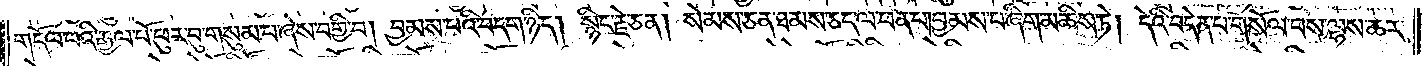གདོལ་པའི་རྒྱལ་པོ་ཕུར་བུ་གསུམ་པ་ཞེས་བགྱི་བ། བྱམས་པའི་བདག་ཉིད། སྙིང་རྗེ་ཅན། སེམས་ཅན་ཐམས་ཅད་ལ་ཕན་པ། བྱམས་པ་ཞིག་མཆིས་ཏེ། དེའི་བདེན་པ་གསོལ་བས་ལྷས་ཆར་
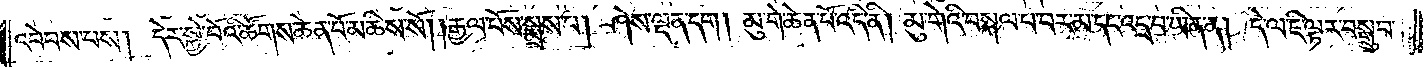འབེབས་པས། དེར་སྐྱེ་བོའི་ཚོགས་ཆེན་པོ་མཆིས་སོ། །རྒྱལ་པོས་སྨྲས་པ། ཤེས་ལྡན་དག །མུ་གེ་ཆེན་པོ་འདི་ནི། མུ་གེའི་བསྐལ་པ་བར་མ་དང་འདྲ་བ་ཡིན་ན། དེ་ལ་ཇི་ལྟར་བསྒྲུབ་
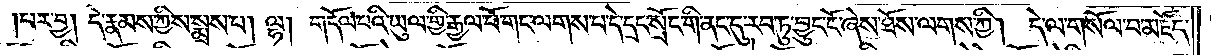པར་བྱ། དེ་རྣམས་ཀྱིས་སྨྲས་པ། ལྷ། གདོལ་པའི་ཡུལ་གྱི་རྒྱལ་པོ་གང་ལགས་པ་དེ་དྲང་སྲོང་གི་ནང་དུ་རབ་ཏུ་བྱུང་ངོ་ཞེས་ཐོས་ལགས་ཀྱི། དེ་ལ་གསོལ་པ་མཛོད་
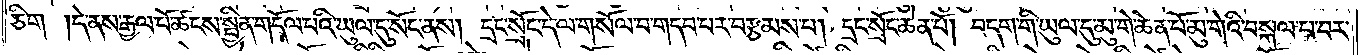ཅིག །དེ་ནས་རྒྱལ་པོ་ཚངས་སྦྱིན་གདོལ་བའི་ཡུལ་དུ་སོང་ནས། དྲང་སྲོང་དེ་ལ་གསོལ་བ་གདབ་པར་བརྩམས་པ། དྲང་སྲོང་ཆེན་པོ། བདག་གི་ཡུལ་དུ་མུ་གེ་ཆེན་པོ་མུ་གེའི་བསྐལ་པ་བར་
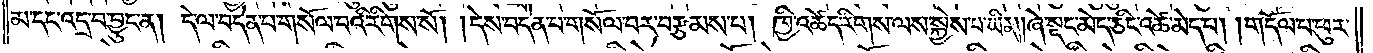མ་དང་འདྲ་བ་བྱུང་ན། དེ་ལ་བདེན་པ་གསོལ་བའི་རིགས་སོ། །དེས་བདེན་པ་གསོལ་བར་བརྩམས་པ། ཁྱི་འཚེད་རིགས་ལས་སྐྱེས་པ་ཡིན། །ཞེ་སྡང་མེད་ཅིང་འཚེ་མེད་པ། །གདོལ་པ་ཕུར་
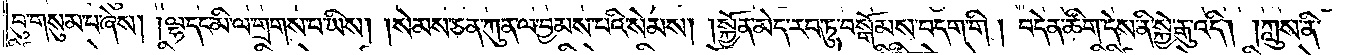བུ་གསུམ་པ་ཞེས། །ལྷ་དང་མི་ལ་གྲགས་པ་ཡིས། །སེམས་ཅན་ཀུན་ལ་བྱམས་པའི་སེམས། །སྐྱོན་མེད་རབ་ཏུ་བསྒོམས་བདག་གི །བདེན་ཚིག་དེས་ནི་སྐྱེ་རྒུ་འདི། །ཀླུས་ནི་
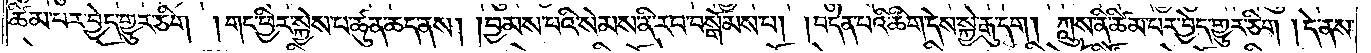ཚིམ་པར་བྱེད་གྱུར་ཅིག །གང་ཕྱིར་སྐྱེས་པ་ཚུན་ཆད་ནས། །བྱམས་པའི་སེམས་ནི་རབ་བསྒོམས་པ། །བདེན་པའི་ཚིག་དེས་སྐྱེ་རྒུ་དག། ཀླུས་ནི་ཚིམ་པར་བྱེད་གྱུར་ཅིག །དེ་ནས་
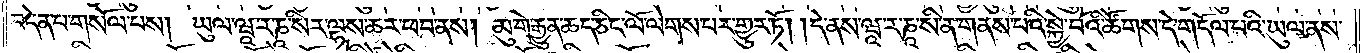བདེན་པ་གསོལ་པས། ཡུལ་ཝཱ་ར་ཎཱ་སིར་ལྷས་ཆར་ཕབ་ནས། མུ་གེ་རྒྱུན་ཆད་ཅིང་ལོ་ལེགས་པར་གྱུར་ཏོ། །དེ་ནས་ཝཱ་ར་ཎཱ་སི་ན་གནས་པའི་སྐྱེ་བོའི་ཚོགས་དེ་གདོལ་པའི་ཡུལ་ནས་
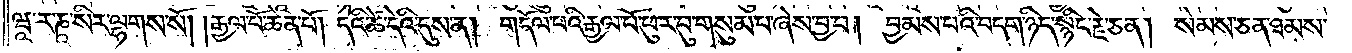ཝཱ་ར་ཎཱ་སིར་ལྷགས་སོ། །རྒྱལ་པོ་ཆེན་པོ། དེའི་ཚེ་དེའི་དུས་ན། གདོལ་པའི་རྒྱལ་པོ་ཕུར་བུ་གསུམ་པ་ཞེས་བྱ་བ། བྱམས་པའི་བདག་ཉིད་སྙིང་རྗེ་ཅན། སེམས་ཅན་ཐམས་
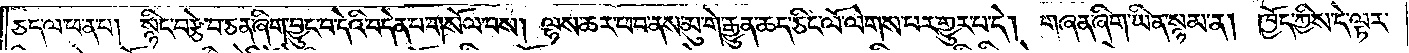ཅད་ལ་ཕ་ན་པ། སྙིང་བརྩེ་བ་ཅན་ཞིག་བྱུང་བ་དེའི་བདེན་པ་གསོལ་བས། ལྷས་ཆར་ཕབ་ནས་མུ་གེ་རྒྱུན་ཆད་ཅིང་ལོ་ལགས་པར་གྱུར་པ་དེ། གཞན་ཞིག་ཡིན་སྙམ་ན། ཁྱོད་ཀྱིས་དེ་ལྟར་
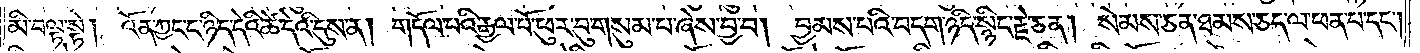མི་བལྟ་སྟེ། འོན་ཀྱང་ང་ཉིད་དེའི་ཚེ་དེའི་དུས་ན། གདོལ་པའི་རྒྱལ་པོ་ཕུར་བུ་གསུམ་པ་ཞེས་བྱ་བ། བྱམས་པའི་བདག་ཉིད་སྙིང་རྗེ་ཅན། སེམས་ཅན་ཐམས་ཅད་ལ་ཕན་པ་དང༌།
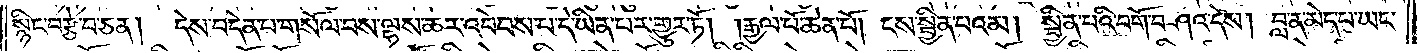སྙིང་བརྩེ་བ་ཅན། དེས་བདེན་པ་གསོལ་བས་ལྷས་ཆར་འབེབས་པ་དེ་ཡིན་པར་གྱུར་ཏོ། །རྒྱལ་པོ་ཆེན་པོ། ངས་སྦྱིན་པའམ། སྦྱིན་པའི་བགོ་བཤའ་དེས། བླ་ན་མེད་པ་ཡང་
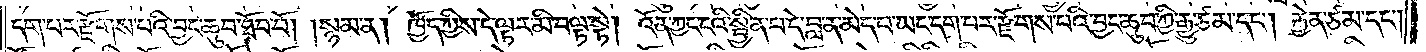དག་པར་རྫོགས་པའི་བྱང་ཆུབ་ཐོབ་བོ། །སྙམ་ན། ཁྱོད་ཀྱིས་དེ་ལྟར་མི་བལྟ་སྟེ། འོན་ཀྱང་ངའི་སྦྱིན་པ་དེ་བླ་ན་མེད་པ་ཡང་དག་པར་རྫོགས་པའི་བྱང་ཆུབ་ཀྱི་རྒྱུ་ཙམ་དང༌། རྐྱེན་ཙམ་དང༌།
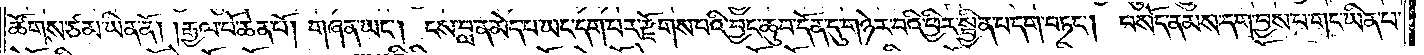ཚོགས་ཙམ་ཡིན་ནོ།    །རྒྱལ་པོ་ཆེན་པོ། གཞན་ཡང༌། ངས་བླ་ན་མེད་པ་ཡང་དག་པར་རྫོགས་པའི་བྱང་ཆུབ་དོན་དུ་གཉེར་པའི་ཕྱིར་སྦྱིན་པ་དག་བཏང༌། བསོད་ནམས་དག་བྱས་པ་གང་ཡིན་པ་
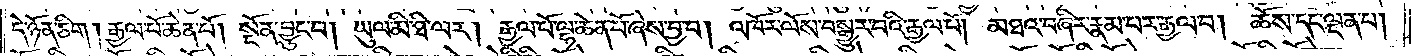དེ་ཉོན་ཅིག །རྒྱལ་པོ་ཆེན་པོ། སྔོན་བྱུང་བ། ཡུལ་མི་ཐི་ལར། རྒྱལ་པོ་ལྷ་ཆེན་པོ་ཞེས་བྱ་བ། འཁོར་ལོས་བསྒྱུར་པའི་རྒྱལ་པོ། མཐའ་བཞིར་རྣམ་པར་རྒྱལ་པ། ཆོས་དང་ལྡན་པ།
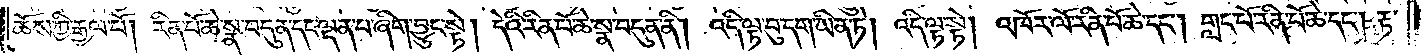ཆོས་ཀྱི་རྒྱལ་པོ། རིན་པོ་ཆེ་སྣ་བདུན་དང་ལྡན་པ་ཞིག་བྱུང་སྟེ། དེའི་རིན་པོ་ཆེ་སྣ་བདུན་ནི། འདི་ལྟ་བུ་དག་ཡིན་ཏེ། འདི་ལྟ་སྟེ། འཁོར་ལོ་རིན་པོ་ཆེ་དང༌། གླང་པོ་རིན་པོ་ཆེ་དང༌། རྟ་
